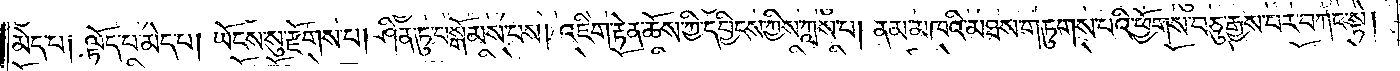མེད་པ༑ ལྟོད་པ་མེད་པ། ཡོངས་སུ་རྫོགས་པ། ཤིན་ཏུ་བསྒོམས་པས། འཇིག་རྟེན་ཆོས་ཀྱི་དབྱིངས་ཀྱིས་ཀླས་པ། ནམ་མཁའི་མཐས་གཏུགས་པའི་ཕྱོགས་བཅུ་རྒྱས་པར་བཀང་སྟེ།
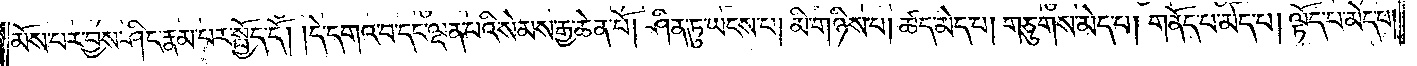མོས་པར་བྱས་ཤིང་རྣམ་པར་སྤྱོད་དོ། །དེ་དགའ་བ་དང་ལྡན་པའི་སེམས་རྒྱ་ཆེན་པོ། ཤིན་ཏུ་ཡངས་པ། མི་གཉིས་པ། ཚད་མེད་པ། གཅུགས་མེད་པ། གནོད་པ་མེད་པ། ལྟོད་པ་མེད་པ།
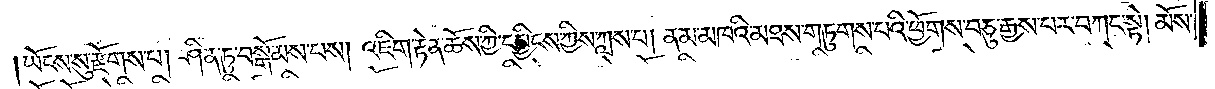ཡོངས་སུ་རྫོགས་པ། ཤིན་ཏུ་བསྒོམས་པས། འཇིག་རྟེན་ཆོས་ཀྱི་དབྱིངས་ཀྱིས་ཀླས་པ། ནམ་མཁའི་མཐས་གཏུགས་པའི་ཕྱོགས་བཅུ་རྒྱས་པར་བཀང་སྟེ། མོས་
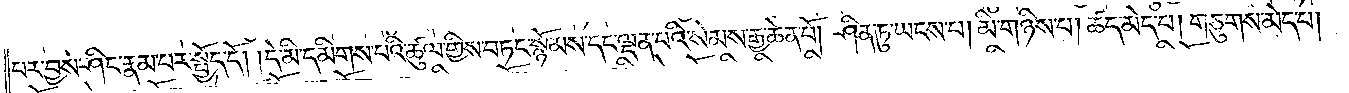པར་བྱས་ཤིང་རྣམ་པར་སྤྱོད་དོ། །དེ་མི་དམིགས་པའི་ཚུལ་གྱིས་བཏང་སྙོམས་དང་ལྡན་པའི་སེམས་རྒྱ་ཆེན་པོ། ཤིན་ཏུ་ཡངས་པ། མི་གཉིས་པ། ཚད་མེད་པ། གཅུགས་མེད་པ།
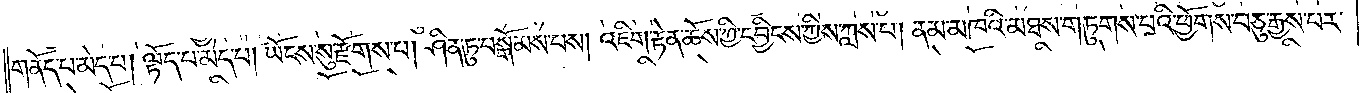གནོད་པ་མེད་པ། ལྟོད་པ་མེད་པ། ཡོངས་སུ་རྫོགས་པ། ཤིན་ཏུ་བསྒོམས་པས། འཇིག་རྟེན་ཆོས་ཀྱི་དབྱིངས་ཀྱིས་ཀླས་པ། ནམ་མཁའི་མཐས་གཏུགས་པའི་ཕྱོགས་བཅུ་རྒྱས་པར་
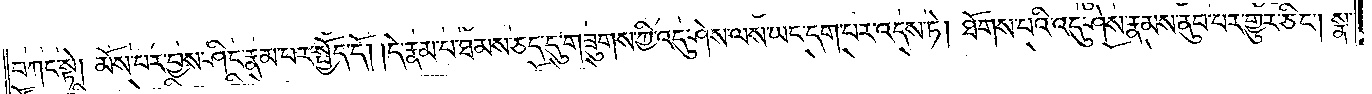བཀང་སྟེ། མོས་པར་བྱས་ཤིང་རྣམ་པར་སྤྱོད་དོ། །དེ་རྣམ་པ་ཐམས་ཅད་དུ་གཟུགས་ཀྱི་འདུ་ཤེས་ལས་ཡང་དག་པར་འདས་ཏེ། ཐོགས་པའི་འདུ་ཤེས་རྣམས་ནུབ་པར་གྱུར་ཅིང༌། སྣ་
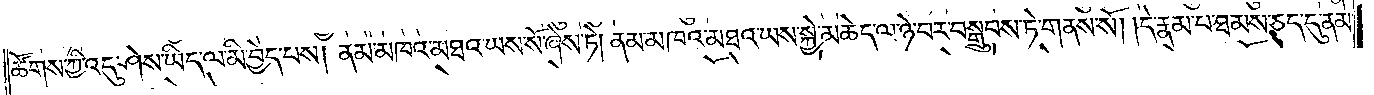ཚོགས་ཀྱི་འདུ་ཤེས་ཡིད་ལ་མི་བྱེད་པས། ནམ་མཁའ་མཐའ་ཡས་སོ་ཞེས་ཏེ། ནམ་མཁའ་མཐའ་ཡས་སྐྱེ་མཆེད་ལ་ཉེ་བར་བསྒྲུབས་ཏེ་གནས་སོ། །དེ་རྣམ་པ་ཐམས་ཅད་དུ་ནམ་
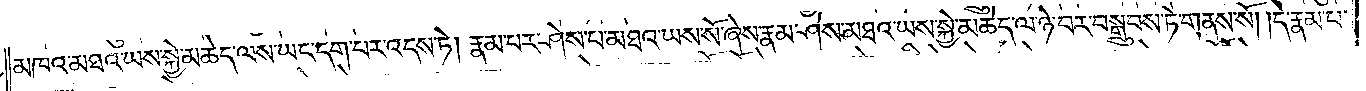མཁའ་མཐའ་ཡས་སྐྱེ་མཆེད་ལས་ཡང་དག་པར་འདས་ཏེ། རྣམ་པར་ཤེས་པ་མཐའ་ཡས་སོ་ཞེས་རྣམ་ཤེས་མཐའ་ཡས་སྐྱེ་མཆེད་ལ་ཉེ་བར་བསྒྲུབས་ཏེ་གནས་སོ། །དེ་རྣམ་པ་
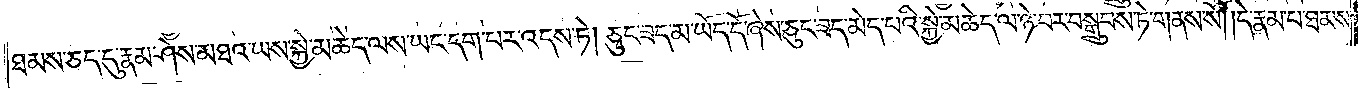ཐམས་ཅད་དུ་རྣམ་ཤེས་མཐའ་ཡས་སྐྱེ་མཆེད་ལས་ཡང་དག་པར་འདས་ཏེ། ཅུང་ཟད་མ་ཡོད་དོ་ཞེས་ཅུང་ཟད་མེད་པའི་སྐྱེ་མཆེད་ལ་ཉེ་བར་བསྒྲུབས་ཏེ་གནས་སོ། །དེ་རྣམ་པ་ཐམས་
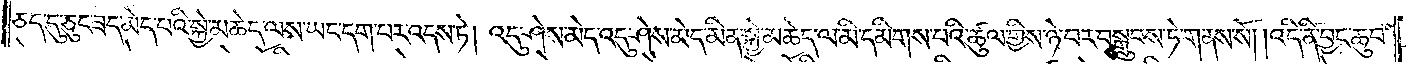ཅད་དུ་ཅུང་ཟད་མེད་པའི་སྐྱེ་མཆེད་ལས་ཡང་དག་པར་འདས་ཏེ། འདུ་ཤེས་མེད་འདུ་ཤེས་མེད་མིན་སྐྱེ་མཆེད་ལ་མི་དམིགས་པའི་ཚུལ་གྱིས་ཉེ་བར་བསྒྲུབས་ཏེ་གནས་སོ། །འདི་ནི་བྱང་ཆུབ་
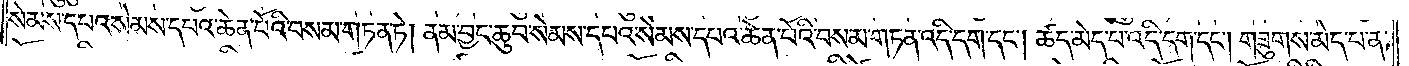སེམས་དཔའ་སེམས་དཔའ་ཆེན་པོའི་བསམ་གཏན་ཏེ། ནམ་བྱང་ཆུབ་སེམས་དཔའ་སེམས་དཔའ་ཆེན་པོའི་བསམ་གཏན་འདི་དག་དང༌། ཚད་མེད་པ་འདི་དག་དང༌། གཟུགས་མེད་པ་ན་
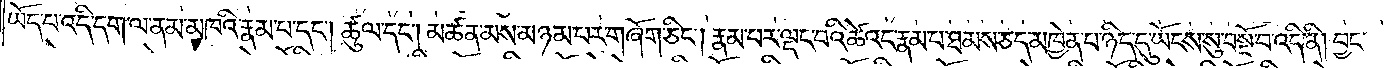ཡོད་པ་འདི་དག་ལ་ནམ་མཁའི་རྣམ་པ་དང༌། ཚུལ་དང༌། མཚན་མས་མཉམ་པར་གཞོག་ཅིང༌། རྣམ་པར་ལྡང་བའི་ཚེའང་རྣམ་པ་ཐམས་ཅད་མཁྱེན་པ་ཉིད་དུ་ཡོངས་སུ་བསྔོ་བ་འདི་ནི། བྱང་
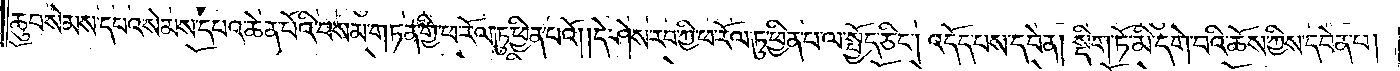ཆུབ་སེམས་དཔའ་སེམས་དཔའ་ཆེན་པོའི་བསམ་གཏན་གྱི་ཕ་རོལ་ཏུ་ཕྱིན་པའོ། །དེ་ཤེས་རབ་ཀྱི་ཕ་རོལ་ཏུ་ཕྱིན་པ་ལ་སྤྱོད་ཅིང༌། འདོད་པས་དབེན། སྡིག་ཏོ་མི་དགེ་བའི་ཆོས་ཀྱིས་དབེན་པ།
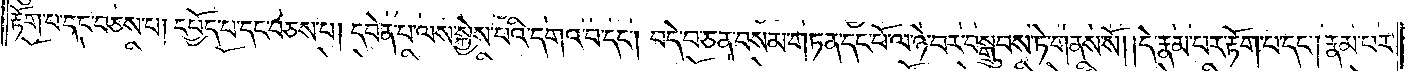རྟོག་པ་དང་བཅས་པ། དཔྱོད་པ་དང་བཅས་པ། དབེན་པ་ལས་སྐྱེས་པའི་དགའ་བ་དང༌། བདེ་བ་ཅན་བསམ་གཏན་དང་པོ་ལ་ཉེ་བར་བསྒྲུབས་ཏེ་གནས་སོ། །དེ་རྣམ་པར་རྟོག་པ་དང༌། རྣམ་པར་
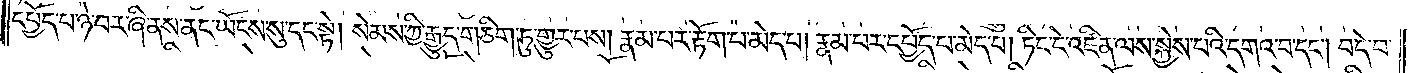དཔྱོད་པ་ཉེ་བར་ཞི་ནས་ནང་ཡོངས་སུ་དང་སྟེ། སེམས་ཀྱི་རྒྱུད་གཅིག་ཏུ་གྱུར་པས། རྣམ་པར་རྟོག་པ་མེད་པ། རྣམ་པར་དཔྱོད་པ་མེད་པ། ཏིང་ངེ་འཛིན་ལས་སྐྱེས་པའི་དགའ་བ་དང༌། བདེ་བ་
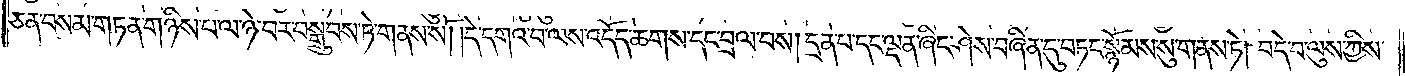ཅན་བསམ་གཏན་གཉིས་པ་ལ་ཉེ་བར་བསྒྲུབས་ཏེ་གནས་སོ། །དེ་དགའ་བ་ལས་འདོད་ཆགས་དང་བྲལ་པས། དྲན་པ་དང་ལྡན་ཞིང་ཤེས་བཞིན་དུ་བཏང་སྙོམས་སུ་གནས་ཏེ། བདེ་བ་ལུས་ཀྱིས་
